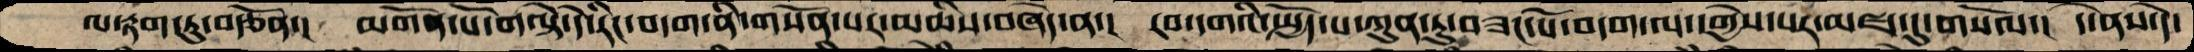ལ་རྟག་ཏུ་བརྩོན་།  མགོན་པོ་གལྟེ་དེ་རིང་བདག་ནི་གསོན་པར་མཆིས་བཞེད་ན་།   རབ་དགའི་སྤྱོད་པ་ཀུན་ཏུ་བཟང་པོ་བདག་ལ་དགྱེས་པར་མཛད་དུ་གསོལ་།  དེ་ནས་དེ་
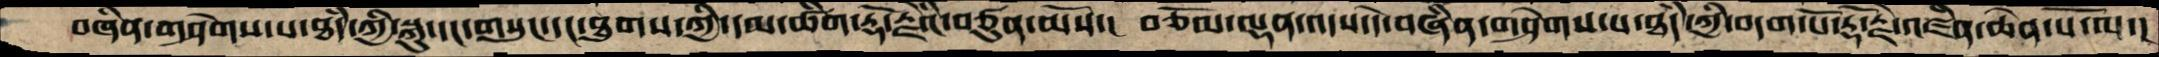བཞིན་གཤེགས་པ་ཐཾད་ཀྱི་སྐུ་དང་གསུང་དང་ཐུགས་ཀྱི་དམ་ཚིག་རྡོ་རྗེའི་བཙུན་མོས་།   བཅོམ་ལྡན་འདས་དེ་བཞིན་གཤེགས་པ་ཐཾད་ཀྱི་བདག་པོ་རྡོ་རྗེ་འཛིན་ཆེན་པོ་ལ་།
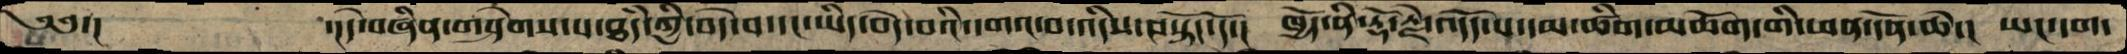༄༅་།         ་།དེ་བཞིན་གཤེགས་པ་ཐཾད་ཀྱི་བདེ་བ་དང་ཡིད་བདེ་བའི་དགའ་བ་འདིས་བསྟོད་དོ་།   ཁྱོད་ནི་རྡོ་རྗེ་འདོད་པ་དམ་ཚིག་མཆོག་གི་ཕན་དོན་ཆེ་།  ཡང་དག་
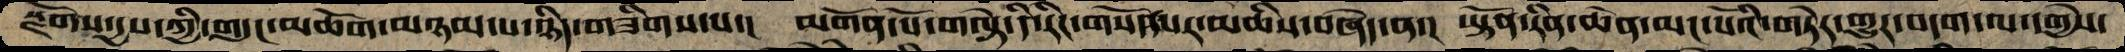སྫོགས་དྱས་ཀྱི་གདུང་མཆོག་མཉམ་པ་ཉིད་གཟིགས་པ་།  མགོན་པོ་གལྟེ་དི་རིང་གསོད་པར་མཆིས་བཞེད་ན་།  ཡྟོན་རིན་ཆེན་མང་པོའི་གཏེར་གྱུར་བདག་ལ་དགྱེས་
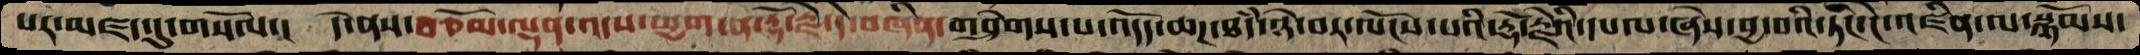པར་མཛད་དུ་གསོལ་།   དེ་ནས་བཅོམ་ལྡན་འདས་ཕྱག་ན་རྡོ་རྗེ་དེ་བཞིན་གཤེགས་པ་འདོད་ཆཌ་ཐཾད་ཉེ་བར་ལོངས་པའི་རྡོ་རྗེའི་དཔལ་ཞེས་བྱ་བའི་ཏིང་ངེ་འཛིན་ལ་སྙོམས་
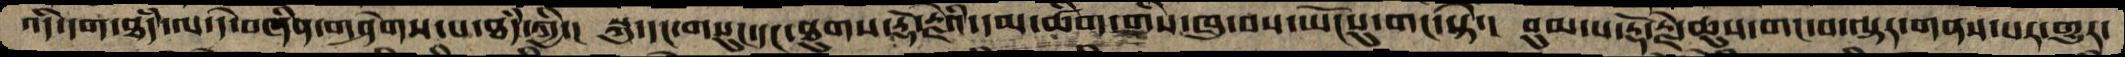འདི་དག་ཐཾད་ལ་དེ་བཞིན་གཤེགས་པ་ཐཾད་ཀྱི་།  སྐུ་དང་གསུང་དང་ཐུགས་རྡོ་རྗེའི་དམ་ཚིག་གིས་ཁུ་བས་ཡོངསུ་གང་སྟེ་།  བུམ་པ་རྡོ་རྗེ་ཆུས་གང་བ་ལྟར་གནས་པར་གྱུར་
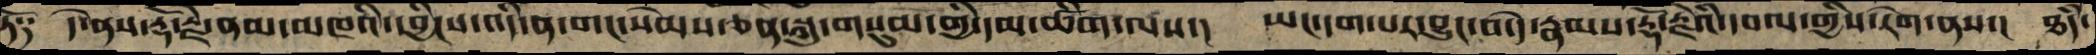ཏོ༑   དེ་ནས་རྡོ་རྗེ་ནམ་མཁའི་དབྱིངས་འདི་ན་གང་སེམས་ཅན་སྐུ་གསུམ་གྱི་དམ་ཚིག་ལས་།  ཡང་དག་པར་བྱུང་བ་དེ་རྣམས་རྡོ་རྗེའི་དབལ་གྱིས་རེག་ནས་།  ཐཾད་
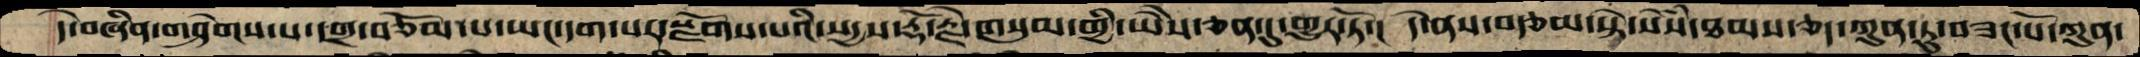དེ་བཞིན་གཤེགས་པ་དགྲ་བཅོམ་པ་ཡང་དག་པར་སྫོགས་པའི་སདྱས་རྡོ་རྗེ་གསུམ་གྱི་ཡཻས་ཅན་དུ་གྱུར་ཏོ་།  དེ་ནས་བརྩམ་སྟེ་སེསཾ་ཐམས་ཅད་ཀུན་ཏུ་བཟང་པོ་ཀུན་
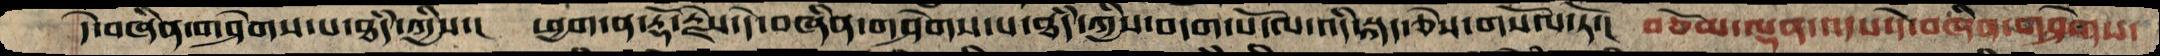དེ་བཞིན་གཤེགས་པ་ཐཾད་ཀྱིས་།   ཕྱག་ན་རྡོ་རྗེས་དེ་བཞིན་གཤེགས་པ་ཐཾད་ཀྱིས་བདག་པོ་ལ་འདི་སྐད་ཅེས་གསོལ་ཏོ་།   བཅོམ་ལྡན་འདས་དེ་བཞིན་གཤེགས་
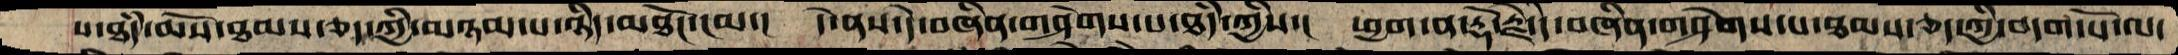པ་ཐཾད་ཆོས་ཐམས་ཅད་ཀྱི་མཉམ་པ་ཉིད་མཐོང་ངམ་།   དེ་ནས་དེ་བཞིན་གཤེགས་པ་ཐཾད་ཀྱིས་།  ཕྱག་ན་རྡོ་རྗེ་དེ་བཞིན་གཤེགས་པ་ཐམས་ཅད་ཀྱི་བདག་པོ་ལ་
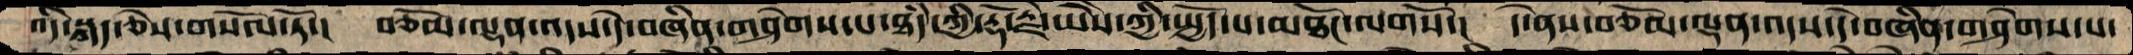འདི་སྐད་ཅེས་གསོལ་ཏོ་།   བཅོམ་ལྡན་འདས་དེ་བཞིན་གཤེགས་པ་ཐཾད་ཀྱི་རྡོ་རྗེ་ཡཻས་ཀྱི་སྤྱོད་པ་མཐོང་ལགསོ་།  དེ་ནས་བཅོམ་ལྡན་འདས་དེ་བཞིན་གཤེགས་པ་
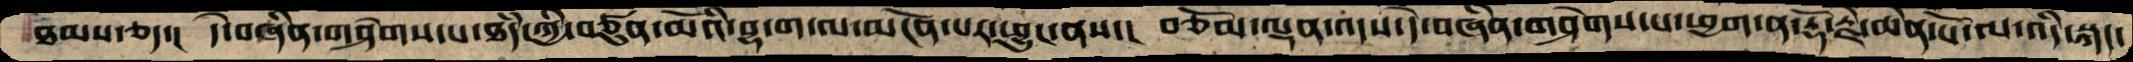ཐམས་ཅད་།   དེ་བཞིན་གཤེགས་པ་ཐཾད་ཀྱི་བཙུན་མོའི་བྷ་ག་ལ་མངོན་པར་ཕྱུང་ནས་།   བཅོམ་ལྡན་འདས་དེ་བཞིན་གཤེགས་པ་ཕྱག་ན་རྡོ་རྗེ་ཆེན་པོ་ལ་འདི་སྐད་
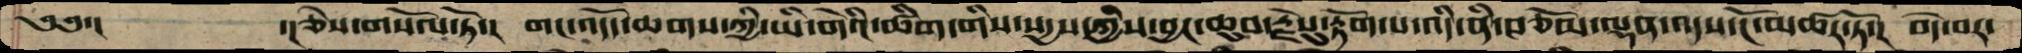༄༅་།        ་།ཅེས་གསོལ་ཏོ་།   གང་འདོད་ཆགས་ཀྱི་ཡི་གེའི་ཚིག་གིས་སདྱས་ཀྱིས་བྱང་ཆུབ་རྗེསུ་རྟོག་པ་འདི་ནི་བཅོམ་ལྡན་འདས་ངོ་མཚར་ཏོ་།  བདེ་བར་
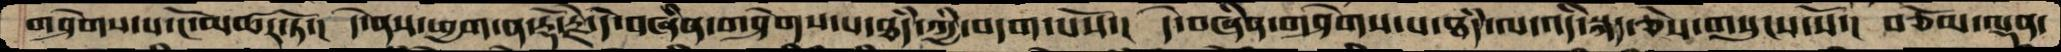གཤེགས་པ་ངོ་མཚར་ཏོ་།  དེ་ནས་ཕྱག་ན་རྡོ་རྗེ་དེ་བཞིན་གཤེགས་པ་ཐཾད་ཀྱི་བདག་པོས་།   དེ་བཞིན་གཤེགས་པ་ཐཾད་ལ་འདི་སྐད་ཅེས་གསུངས་སོ་།  བཅོམ་ལྡན་
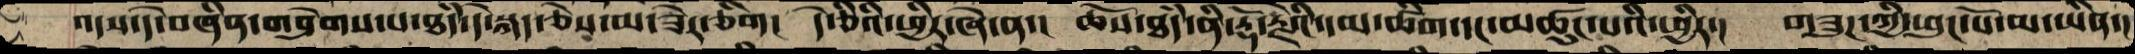འདས་དེ་བཞིན་གཤེགས་པ་ཐཾད་དེ་སྐད་ཅེས་མ་ཟེར་ཅིག།   དེ་ཅིའི་ཕྱིར་ཞེ་ན་།   ཆོས་ཐཾད་ནི་རྡོ་རྗེའི་དམ་ཚིག་དང་མཚུངས་པའི་ཕྱིར་།  གཟུཌ་ཀྱི་ཕུང་པོ་མ་ཡིན་ད
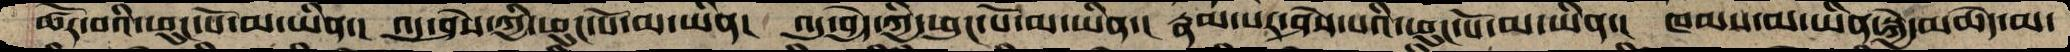ཚོར་བའི་ཕུང་པོ་མ་ཡིན་།  འདུ་ཤེས་ཀྱི་ཕུང་པོ་མ་ཡིན།  འདུ་བྱེད་ཀྱི་ཕུང་པོ་མ་ཡིན་།  རྣམ་པར་ཤེས་པའི་ཕུང་པོ་མ་ཡིན་། ཁམས་མ་ཡིན་སྐྱེ་མཆེད་མ་
